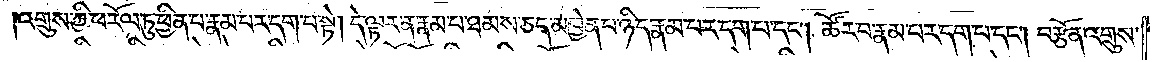འགྲུས་ཀྱི་ཕ་རོལ་ཏུ་ཕྱིན་པ་རྣམ་པར་དག་པ་སྟེ། དེ་ལྟར་ན་རྣམ་པ་ཐམས་ཅད་མཁྱེན་པ་ཉིད་རྣམ་པར་དག་པ་དང༌། ཚོར་བ་རྣམ་པར་དག་པ་དང༌། བརྩོན་འགྲུས་
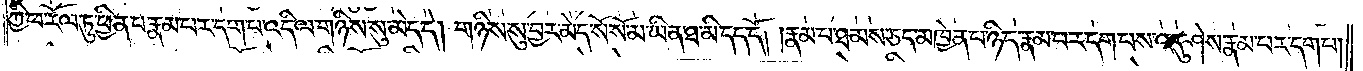ཀྱི་ཕ་རོལ་ཏུ་ཕྱིན་པ་རྣམ་པར་དག་པ་འདི་ལ་གཉིས་སུ་མེད་དེ། གཉིས་སུ་བྱར་མེད་སོ་སོ་མ་ཡིན་ཐ་མི་དད་དོ། །རྣམ་པ་ཐམས་ཅད་མཁྱེན་པ་ཉིད་རྣམ་པར་དག་པས་འདུ་ཤེས་རྣམ་པར་དག་པ།
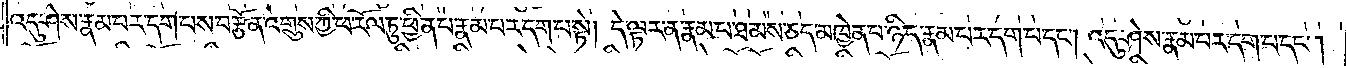འདུ་ཤེས་རྣམ་པར་དག་པས་བརྩོན་འགྲུས་ཀྱི་ཕ་རོལ་ཏུ་ཕྱིན་པ་རྣམ་པར་དག་པ་སྟེ། དེ་ལྟར་ན་རྣམ་པ་ཐམས་ཅད་མཁྱེན་པ་ཉིད་རྣམ་པར་དག་པ་དང༌། འདུ་ཤེས་རྣམ་པར་དག་པ་དང༌།
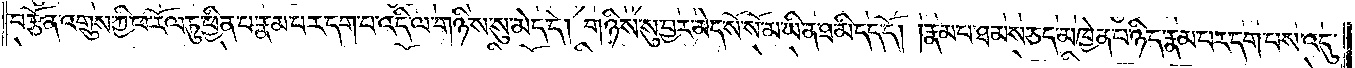བརྩོན་འགྲུས་ཀྱི་ཕ་རོལ་ཏུ་ཕྱིན་པ་རྣམ་པར་དག་པ་འདི་ལ་གཉིས་སུ་མེད་དེ། གཉིས་སུ་བྱར་མེད་སོ་སོ་མ་ཡིན་ཐ་མི་དད་དོ། །རྣམ་པ་ཐམས་ཅད་མཁྱེན་པ་ཉིད་རྣམ་པར་དག་པས་འདུ་
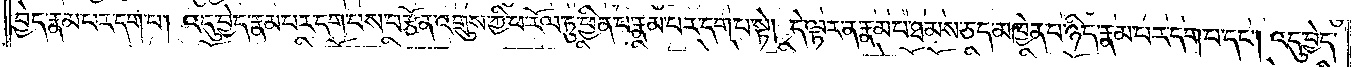བྱེད་རྣམ་པར་དག་པ། འདུ་བྱེད་རྣམ་པར་དག་པས་བརྩོན་འགྲུས་ཀྱི་ཕ་རོལ་ཏུ་ཕྱིན་པ་རྣམ་པར་དག་པ་སྟེ། དེ་ལྟར་ན་རྣམ་པ་ཐམས་ཅད་མཁྱེན་པ་ཉིད་རྣམ་པར་དག་པ་དང༌། འདུ་བྱེད་
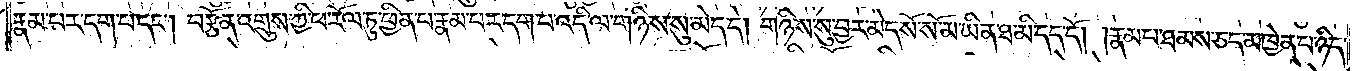རྣམ་པར་དག་པ་དང༌། བརྩོན་འགྲུས་ཀྱི་ཕ་རོལ་ཏུ་ཕྱིན་པ་རྣམ་པར་དག་པ་འདི་ལ་གཉིས་སུ་མེད་དེ། གཉིས་སུ་བྱར་མེད་སོ་སོ་མ་ཡིན་ཐ་མི་དད་དོ། །རྣམ་པ་ཐམས་ཅད་མཁྱེན་པ་ཉིད་
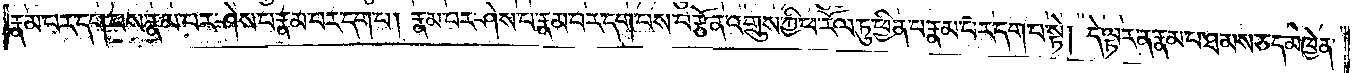རྣམ་པར་དག་པས་རྣམ་པར་ཤེས་པ་རྣམ་པར་དག་པ། རྣམ་པར་ཤེས་པ་རྣམ་པར་དག་པས་བརྩོན་འགྲུས་ཀྱི་ཕ་རོལ་ཏུ་ཕྱིན་པ་རྣམ་པར་དག་པ་སྟེ། དེ་ལྟར་ན་རྣམ་པ་ཐམས་ཅད་མཁྱེན་
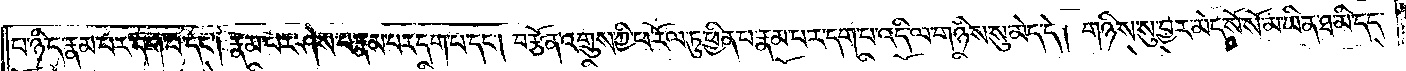པ་ཉིད་རྣམ་པར་དག་པ་དང༌། རྣམ་པར་ཤེས་པ་རྣམ་པར་དག་པ་དང༌། བརྩོན་འགྲུས་ཀྱི་ཕ་རོལ་ཏུ་ཕྱིན་པ་རྣམ་པར་དག་པ་འདི་ལ་གཉིས་སུ་མེད་དེ། གཉིས་སུ་བྱར་མེད་སོ་སོ་མ་ཡིན་ཐ་མི་དད་
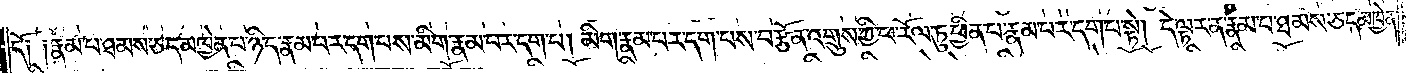དོ༑ ༑རྣམ་པ་ཐམས་ཅད་མཁྱེན་པ་ཉིད་རྣམ་པར་དག་པས་མིག་རྣམ་པར་དག་པ། མིག་རྣམ་པར་དག་པས་བརྩོན་འགྲུས་ཀྱི་ཕ་རོལ་ཏུ་ཕྱིན་པ་རྣམ་པར་དག་པ་སྟེ། དེ་ལྟར་ན་རྣམ་པ་ཐམས་ཅད་མཁྱེན་
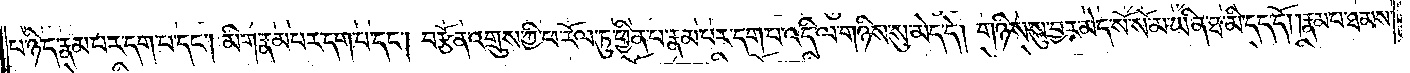པ་ཉིད་རྣམ་པར་དག་པ་དང༌། མིག་རྣམ་པར་དག་པ་དང༌། བརྩོན་འགྲུས་ཀྱི་ཕ་རོལ་ཏུ་ཕྱིན་པ་རྣམ་པར་དག་པ་འདི་ལ་གཉིས་སུ་མེད་དེ། གཉིས་སུ་བྱར་མེད་སོ་སོ་མ་ཡིན་ཐ་མི་དད་དོ། །རྣམ་པ་ཐམས་
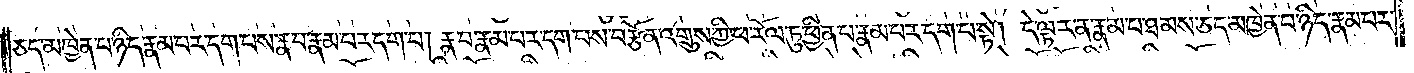ཅད་མཁྱེན་པ་ཉིད་རྣམ་པར་དག་པས་རྣ་བ་རྣམ་པར་དག་པ། རྣ་བ་རྣམ་པར་དག་པས་བརྩོན་འགྲུས་ཀྱི་ཕ་རོལ་ཏུ་ཕྱིན་པ་རྣམ་པར་དག་པ་སྟེ། དེ་ལྟར་ན་རྣམ་པ་ཐམས་ཅད་མཁྱེན་པ་ཉིད་རྣམ་པར་
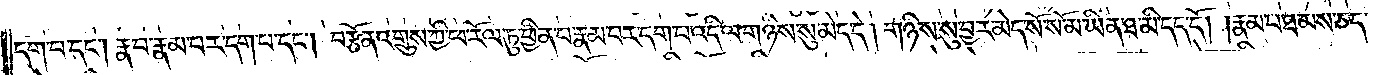དག་པ་དང༌། རྣ་བ་རྣམ་པར་དག་པ་དང༌། བརྩོན་འགྲུས་ཀྱི་ཕ་རོལ་ཏུ་ཕྱིན་པ་རྣམ་པར་དག་པ་འདི་ལ་གཉིས་སུ་མེད་དེ། གཉིས་སུ་བྱར་མེད་སོ་སོ་མ་ཡིན་ཐ་མི་དད་དོ། །རྣམ་པ་ཐམས་ཅད་
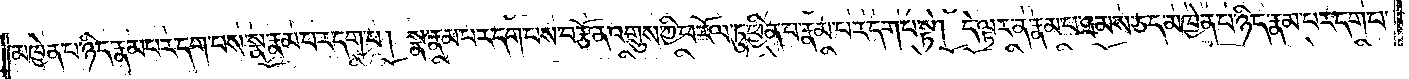མཁྱེན་པ་ཉིད་རྣམ་པར་དག་པས་སྣ་རྣམ་པར་དག་པ། སྣ་རྣམ་པར་དག་པས་བརྩོན་འགྲུས་ཀྱི་ཕ་རོལ་ཏུ་ཕྱིན་པ་རྣམ་པར་དག་པ་སྟེ། དེ་ལྟར་ན་རྣམ་པ་ཐམས་ཅད་མཁྱེན་པ་ཉིད་རྣམ་པར་དག་པ་
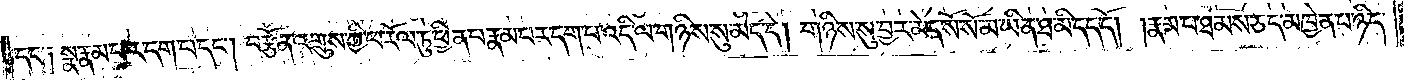དང་༑ སྣ་རྣམ་པར་དག་པ་དང༌། བརྩོན་འགྲུས་ཀྱི་ཕ་རོལ་ཏུ་ཕྱིན་པ་རྣམ་པར་དག་པ་འདི་ལ་གཉིས་སུ་མེད་དེ། གཉིས་སུ་བྱར་མེད་སོ་སོ་མ་ཡིན་ཐ་མི་དད་དོ། །རྣམ་པ་ཐམས་ཅད་མཁྱེན་པ་ཉིད་
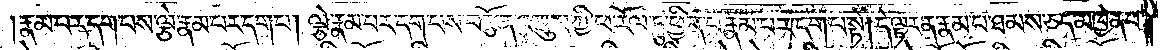རྣམ་པར་དག་པས་ལྕེ་རྣམ་པར་དག་པ། ལྕེ་རྣམ་པར་དག་པས་བརྩོན་འགྲུས་ཀྱི་ཕ་རོལ་ཏུ་ཕྱིན་པ་རྣམ་པར་དག་པ་སྟེ། དེ་ལྟར་ན་རྣམ་པ་ཐམས་ཅད་མཁྱེན་པ་
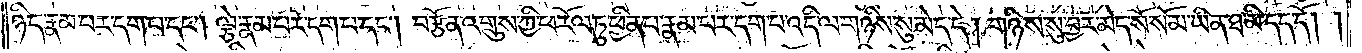ཉིད་རྣམ་པར་དག་པ་དང༌། ལྕེ་རྣམ་པར་དག་པ་དང༌། བརྩོན་འགྲུས་ཀྱི་ཕ་རོལ་ཏུ་ཕྱིན་པ་རྣམ་པར་དག་པ་འདི་ལ་གཉིས་སུ་མེད་དེ། གཉིས་སུ་བྱར་མེད་སོ་སོ་མ་ཡིན་ཐ་མི་དད་དོ། །
